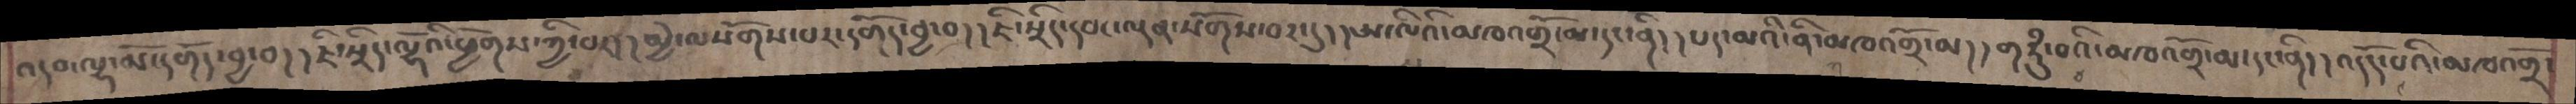འདབ་ལྷ་མོ་དགོད་བྱ་བ།།ཇི་སྲིད་ལྷོའི་ཕྱོགས་ཀྱི་པར།།མྱེ་ལསོགས་པར་དགོད་བྱ་བ།།ཇི་སྲིད་དབང་ལྡན་སོགས་བར་དུ།།ཨ་ལིའི་མཁའ་འགྲོ་མ་དང་ནི།།པད་མའི་ནི་མཁའགྲོ་མ།།གཏུཾ་བའི་མཁའགྲོ་མ་དང་ནི།།འདོད་པའི་མཁའགྲོ་
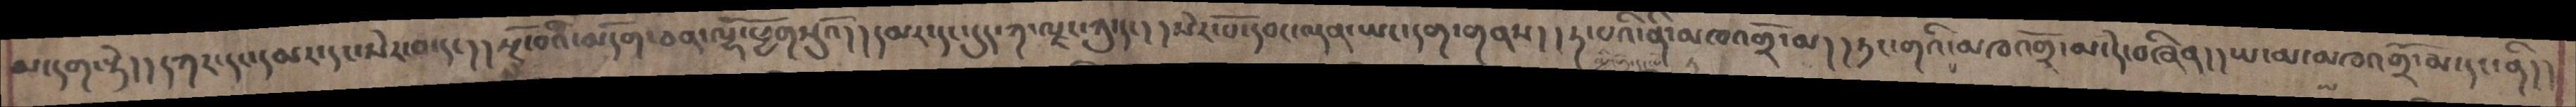མ་དག་སྟེ།།དཀར་དང་དམར་དང་སེར་བ་དང།།སྔོ་བའི་མདོག་ཅན་ལྷོ་ཕྱོགསུའོ།།དམར་དང་དུད་ཀ་ལྗང་ཀུ་དང། །སེར་པོ་དབང་ལྡན་ཡང་དག་གནས།།ཏ་པའི་ནི་མཁའགྲོ་མ།།ཏང་གའི་མཁའགྲོ་མ་དེ་བཞིན།།ཡ་མ་མཁའགྲོ་མ་དང་ནི།།
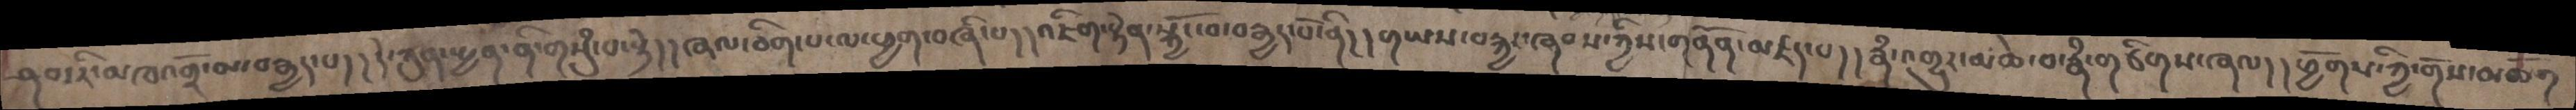ཤབ་རི་མཁའགྲོ་མ་བརྒྱད་པ།།དེ་ཀུན་སྤྱན་ནི་གསུཾ་པ་སྟེ།།ཞལ་ཅིག་པ་ལ་ཕྱག་བཞི་པ།།འཇིག་རྟེན་སྐྱོང་བ་བརྒྱད་པོ་ནི། །གཡས་བརྐྱང་ཞབས་ཀྱིས་གནོན་མཛད་པ། །རྣཾ་འགྱུར་མཆེ་བ་རྣཾ་གཙིགས་ཞལ། །ཕྱོགས་ཀྱི་གོས་མཆོག
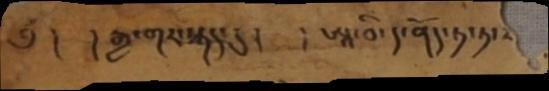༅ །  །རྒྱ་གར་སྐད་དུ །    །ཨཱ་བི་ད་ནོད་ཏ་ཏ་
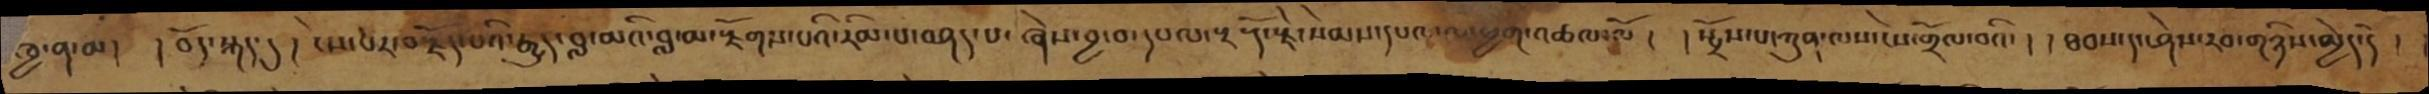ཁྱ་ན་མ། །བོད་སྐད་དུ།  ངེས་པར་བརྗོད་པའི་རྒྱུད་བླ་མའི་བླ་མ་རྫོགས་པའི་རིམ་པ་བཤད་པ་ཞེས་བྱ་བ་དཔལ་རྔ་རྡོ་རྗེ་སེམས་དཔའ་ལ་ཕྱག་འཚལ་ལོ།  སྤྲོས་པ་ཀུན་ལས་ངེས་གྲོལ་བའི། །ཐབས་དང་ཤེས་རབ་གཉིས་མྱེད་དེ།
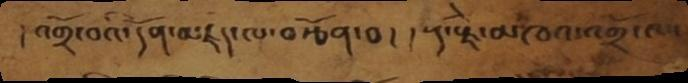།འགྲོ་བའི་དོན་མཛད་ལ་བརྩོན་བ། །རྡ་རྗེ་མཁའ་འགྲོ་ལ་
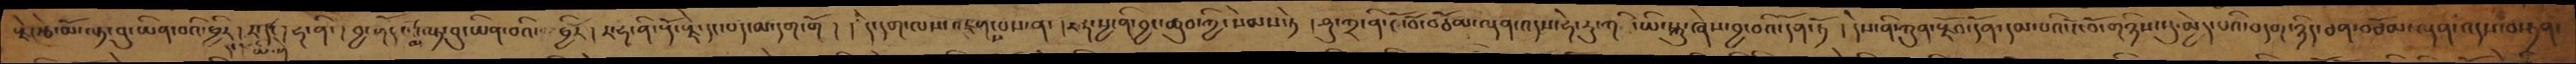རྗེར་རྩེ་མོལྟ་བུ་ཡིན་པའི་ཕྱིར། །།ར་དང་ཡི་གེ། ཧ་ནི། བྱ་གོད་མ་ལྟ་བུ་ཡིན་པའི་ཕྱིར། ར་ཧ་ནི་རྡོ་རྗེ་དང་པད་མ་དག་གོ། །དེ་དག་ལས་འཇུགས་པས་ན་། ར་ཧ་སྱ་ནི་བྱང་ཆུབ་ཀྱི་སེམས་ཏེ། ཤུ་ཀྲ་ནི་ངོ་བོ་བཅོམ་ལྡན་འདས་ཧེ་རུ་ཀ་ཡི་རྒྱུ་ཞེས་བྱ་བའི་དོན་ཏོ། དེས་ནི་ཀུན་རྫོབ་དོན་དམ་པའི་ངོ་བོ་གཉིས་སུ་མྱེད་པའི་བདག་ཉིད་ཅན་བཅོམ་ལྡན་འདས་བསྟན་
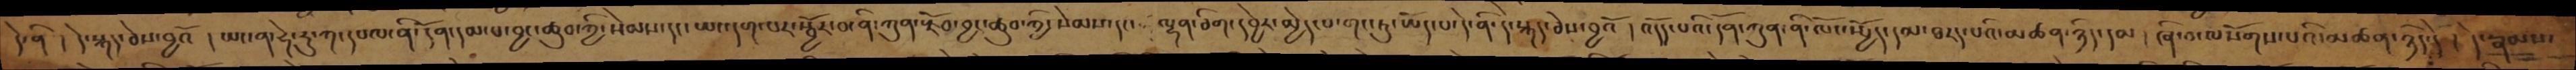དེ་ནི། དེ་སྐད་ཅེས་བྱའོ། ཡང་ན་ཧེ་རུ་ཀ་དཔལ་ནི་དོན་དམ་པ་བྱང་ཆུབ་ཀྱི་སེམས་དང་ཡང་དག་པར་སྦྱོར་བ་ནི་ཀུན་རྫོབ་བྱང་ཆུབ་སེམས་དང་ ལྷན་ཅིག་དབྱེར་མྱེད་པ་གང་ཏུ་ཡོད་པ་དེ་ནི་དེ་སྐད་ཅེས་བྱའོ། འདོད་པའི་དོན་ཀུན་ནི་ལོངསྤྱོད་དམ་ཐརད་པའི་མཚན་ཉིད་དམ། ཞི་བ་ལསོགས་པའི་མཚན་ཉིད་དོ། དེ་རྣམས་
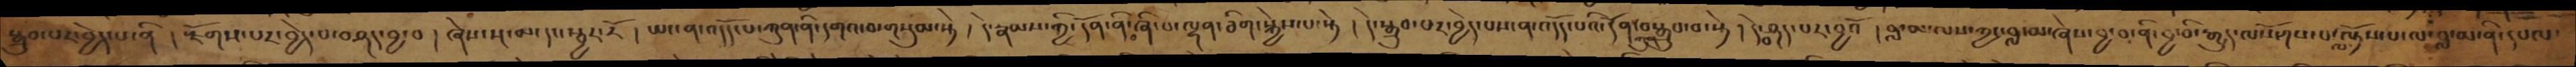སྒྲུབ་པར་བྱེད་པ་ནི། རྫོགས་པར་བྱེད་པ་བཤད་བྱ་བ། ཞེས་སྔ་མ་དང་སྦྱར་རོ། ཡང་ན་འདོད་པ་ཀུན་ནི་དགའ་བ་གསུམ་སྟེ། དེ་རྣམས་ཀྱི་དོན་ནི་ཞི་བ་ལྷན་ཅིག་སྐྱེས་པ་སྟེ། དེ་སྒྲུབ་པར་བྱེད་པས་ན་འདོད་པའི་དོན་ཀུན་སྒྲུབ་བ་སྟེ། དེ་བཤད་པར་བྱའོ། བླ་མ་ལས་ཀྱང་བླ་མ་ཞེས་བྱ་བ་ནི་བྱ་བི་རྒྱུད་ལསོགས་པ་ལ་ལྟོས་པ་ལ་བླ་མ་ནི་དཔལ་
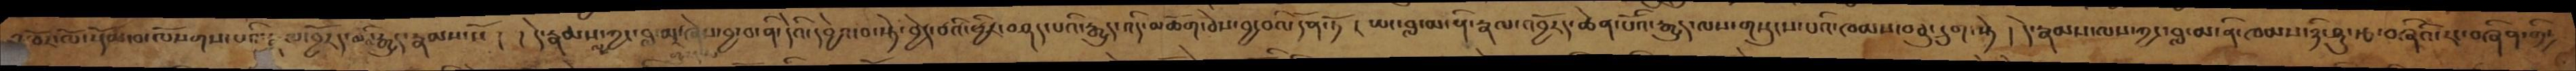འཁོར་ལོ་སྡོམ་བ་ལསོགས་པའི་རྣལ་འབྱོརད་མའི་རྒྱུད་རྣམས་སོ། །དེ་རྣམས་ཀྱང་བླ་མར་ཞེས་བྱ་བ་ནི་དེའི་དབྱེའ་བ་སྟེ་བྱེད་པའི་ཕྱིར་བཤད་པའི་རྒྱུད་འདི་མཆོག་ཅེས་བྱ་བའི་དོན་ཏོ། ཡང་བླ་མ་ནི་རྣལ་འབྱོརད་ཆེན་པོའི་རྒྱུད་ལས་གསུངས་པའི་ཁམས་བཅུ་དྲུག་སྟེ། དེ་རྣམས་ལས་ཀྱང་བླ་མ་ནི་ཁམས་ཉི་ཤུ་རྩ་བཞིའི་རང་བཞིན་གྱི་
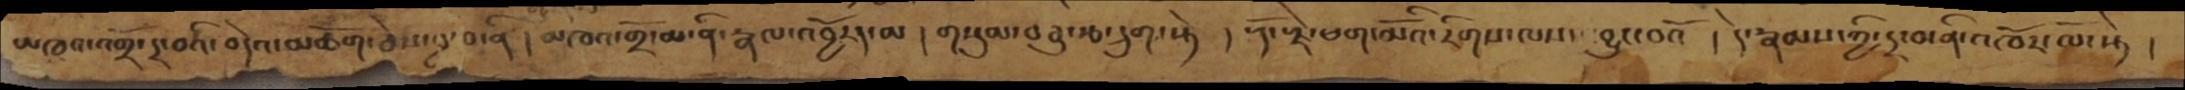མཁའ་འགྲོ་དྲ་བའི་བདེའ་མཆོག་ཅེས་བྱ་བ་ནི། མཁའ་གྲོ་མ་ནི་རྣལ་འབྱོརད་མ། གསུམ་བཅུ་རྩ་དྲུག་སྟེ ། རྡོ་རྗེ་ཕག་མོའི་རིགས་ལས་ བྱུང་བའོ ། དེ་རྣམས་ཀྱི་དྲ་བ་ནི་འཁོར་ལོ་སྟེ །
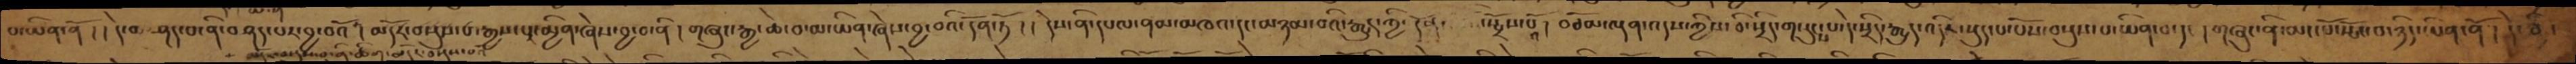པ་ཡིན་ནོ ། ། དེ་མ་བཤད་པ་ནི་བཤད་པར་བྱ་བའོ །མདོར་བསྡུས་པ་རྒྱས་པར་མྱིན་ཞེས་བྱ་བ་ནི ། གཞུང་རྒྱ་ཆེ་བ་མ་ཡིན་ཞེས་བྱ་བའི་དོན་ཏོ ། ། དེས་ནི་དཔལ་ནམ་མཁའ་དང་མཉམ་བའི་རྒྱུད་ཀྱི་ དོན   སྤྲོས་པའོ ། བཅོམ་ལྡན་འདས་ཀྱིས་ཅི་སྲིད་ག་རུངས་པ་དེ་སྲིད་རྒྱུད་འདིར་སྡུད་པ་པོས་བསྡུས་པ་ཡིན་པ་དང་ །གཞུང་ནི་མང་པོ་སྤོང་བ་ཉིད་ཡིན་ནོ ། དེ་ནི
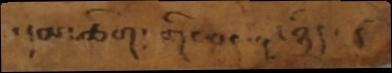དམ་ཚིག་གི་བདག་ཉིད་
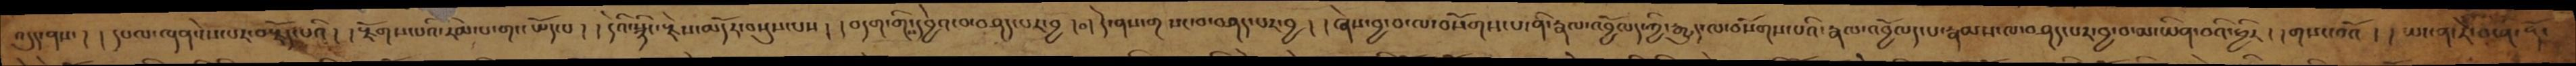བདུད་ནས་། །དཔལ་ལྡན་ངེས་པར་བརྗོད་པའི། །རྫོགས་པའི་རིམ་པ་གང་ཡོད་པ། །དེའི་སྙིང་རྗེ་མདོར་བསྡུས་པས། །བདག་གིས་དབྱེའ་བ་བཤད་པར་བྱ། །དེ་ནས་གསང་བ་བཤད་པར་བྱ། །ཞེས་བྱ་བ་ལ་སོགས་པ་ནི་རྣལ་འབྱོལད་ཀྱི་རྒྱུད་ལ་བསོགས་པའི་རྣལ་འབྱོལད་པ་རྣམས་ལ་བཤད་པར་བྱ་བ་མ་ཡིན་པའི་ཕྱིར། །གསང་བའོ། །ཡང་ན་རེ་བདུན་རྡོ་
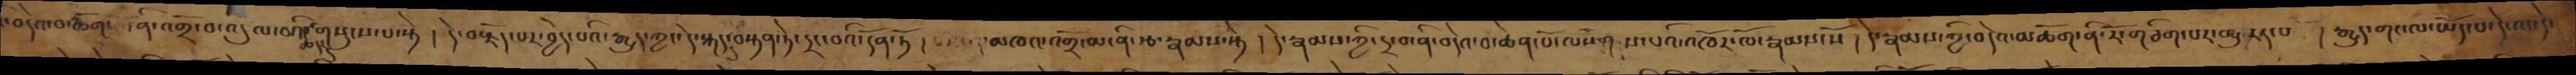བདེའ་བ་མཆོག་ ནི་འགྲོ་བ་འདུལ་བའི་ཆེད་དུ་གསུངས་པ་སྟེ། དེ་བརྗོད་པར་བྱེད་པའི་རྒྱུད་ཀྱང་དེ་སྐད་དུ་བསྟན་ཏེ་དྲང་བའི་དོན་ཏོ་།  མཁའ་འགྲོ་མ་ནི་རྩ་རྣམས་སྟེ།  དེ་རྣམས་ཀྱི་དྲ་བ་ནི་བདེའ་བ་ཆེན་པོ་ལསོགས་པའི་འཁོར་ལོ་རྣམས་སོ།  དེ་རྣམས་ཀྱི་བདེའ་མཆོག་ནི་རོ་གཅིག་པར་གྱུརད་པ །རྒྱུད་གང་ལ་ཡོད་པ་དེ་ལ་དེ་
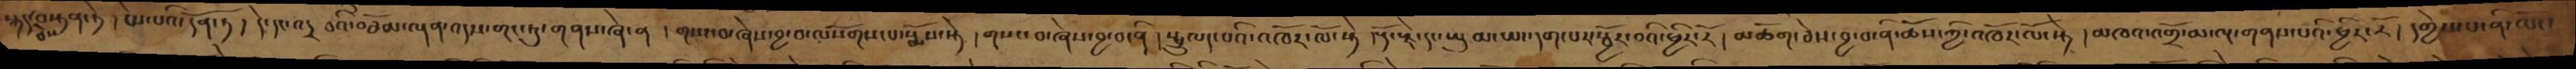སྐད་ཅེས་བསྟན་ཏེ། ངེས་པའི་དོན་ཏོ། དེ་དང་འདྲ་བའི་བཅོམ་ལྡན་འདས་གང་ཏུ་གནས་ཞེ་ན། གསང་བ་ཞེས་བྱ་བ་ལསོགས་པ་སྨོས་སྟེ།  གསང་བ་ཞེས་བྱ་བ་ནི། སྤྲུལད་པའི་འཁོར་ལོ་སྟེ། རྡོ་རྗེ་དང་ཡུམ་ཡང་དག་པར་སྦྱོར་བའི་ཕྱིར་རོ། མཆོག་ཅེས་བྱ་བ་ནི་ཆོས་ཀྱི་འཁོར་ལོ་སྟེ།  མཁའ་འགྲོ་མ་ལྔ་གནས་པའི་ཕྱིར་རོ། དགྱེས་པ་ནི་ལོང་
